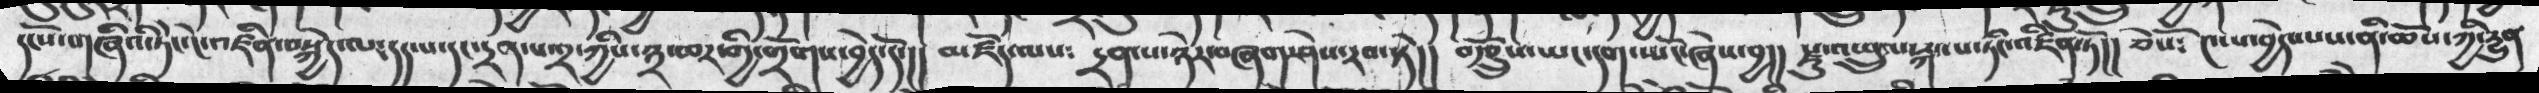དངོས་གཞིའི་ཏིང་ངེ་འཛིན་བསྐྱེད་ལ་དད་པ་དང་དྲན་པ་༢་ཀྱིས་༣་ཆར་གྱི་གྲོགས་བྱེད་དོ་།།  མཛོད་ལས༴  དྲན་པ་ཉེར་བཞག་ཤེས་རབ་སྟེ།།  བརྩྲོུས་ཡང་དག་སྤོང་ཞེས་བྱ།།   རྫུ་འཕྲུལ་རྐང་པ་ཏིང་འཛིན་ཏོ།། ཅེསོ༴  ༤་པ་བྱེད་པས་ནི་ཆོས་ཀྱི་དྱུན
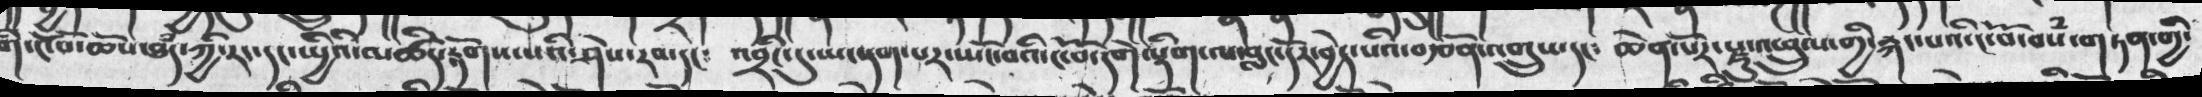གི་ངོ་བོ་ཆོས་ཐཾད་ཀྱི་རང་དང་སྤྱིའི་མཚིད་རྟོགས་པའི་ཤེས་རབ་དང༴   འབྲིང་དུ་ཡང་དག་པར་སྤོང་བའི་ངོ་བོ་དགེ་སྡིག་ལ་བླང་དོར་བྱེད་པའི་བརྩོན་འགྲུས་དང༴  ཆེན་པོར་རྫུ་འཕྲུལ་གྱི་རྐང་པའི་ངོ་བོ་བསཾ་གཏན་གྱི་
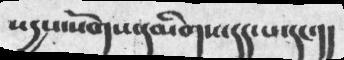སདྱས་སོགས་དམིགས་དད་པ་དང་།།
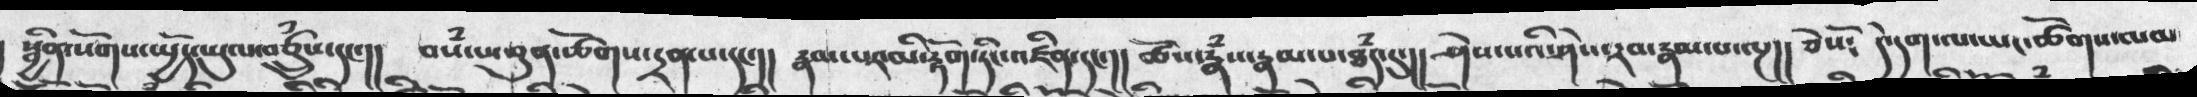སྦྱིན་སོགས་སྤྱོད་ཡུལ་བཙྲུཾས་དང་།།  བསཾ་པ་ཕུན་ཚོགས་དྲན་པ་དང་།།  རྣམ་པར་མི་རྟོག་ཏིང་འཛིན་དང་།།  ཆོས་རྣཾས་རྣམ་པ་ཐཾད་དུ་།།  ཤེས་པའི་ཤེས་རབ་རྣམ་པ་ལྔ།།  ཅེསོ༴  དེ་དག་ལ་ཡང་ཚོགས་ལམ
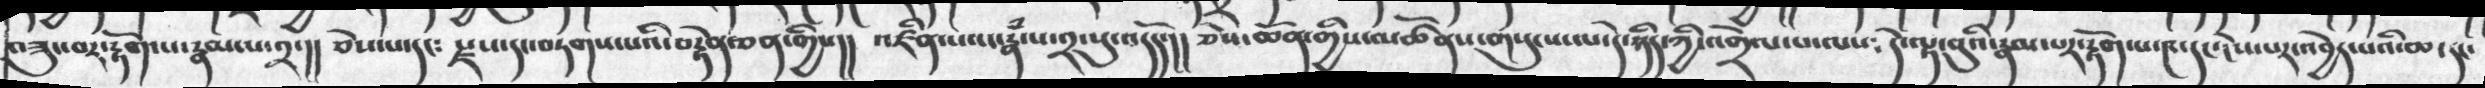བཟུང་བར་རྟོག་པ་རྣམ་པ་༢།།  ཅེས་པ་དང༴  རྫས་དང་བཏགས་པའི་བརྟེན་ཅན་གྱིས།།   འཛིན་པའང་རྣཾ་པ་༢་སུ་འདོད་།།   ཅེས་ཆོན་གྱིས་མཚོནས་གསུངས་པ་དེ་ཉིད་ཀྱི་འགྲེལ་པ་ལས༴  དེ་ལྟ་བུའི་རྣམ་པར་རྟོག་པ་༤་དང་ངེས་པར་དབྱེད་པའི་ཆ་དང་
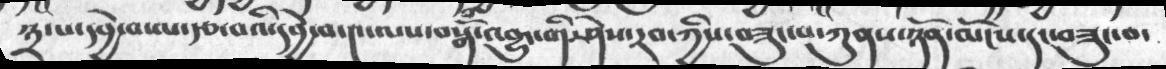༣་པ་དབྱེ་བ་ལ་རྩ་བའི་དབྱེ་བ་༤་ལས་བསྒོཾ་འབྱུང་གི་ཤེས་རབ་ཀྱིས་བཟུང་པ་ཀུནས་ཉོན་མོངས་དང་བཟུང་བ་
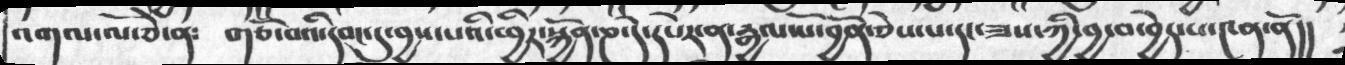འགལ་ལོ་ཅེ་ན༴  གཙོ་བའི་དབང་དུ་བྱས་པའི་ཕྱིར་སྐྱོན་ཎ་དེ་དཔེར་ན་རྒྱལ་པོ་བྱོན་ཅེས་པ་དང་ཟས་ཀྱི་བྱ་བ་བྱེད་པ་༤ན་ནོ།།
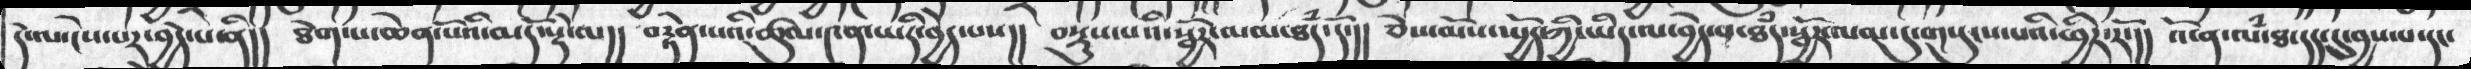དེ་ལ་ངེས་པར་བྱེད་པ་ནི།།  ཐེག་པ་ཆེན་པོའི་མདོ་སྡེ་ལ།། བརྟེན་པའི་ཚུལ་༤ན་ཡིད་བྱེད་པས།། བསྡུས་པའི་སྦྱོར་ལམ་ཐཾད་དོ་།། ཅེས་མོས་སྤྱོད་ཀྱི་ཡིད་ལ་བྱེད་པ་ཐཾད་སྦྱོར་ལམ་དུ་གསུངས་པའི་ཕྱིར་རོ་།། འོ་ན་ལཾ་ཐ་དད་དུ་བྱས་པ་དང་
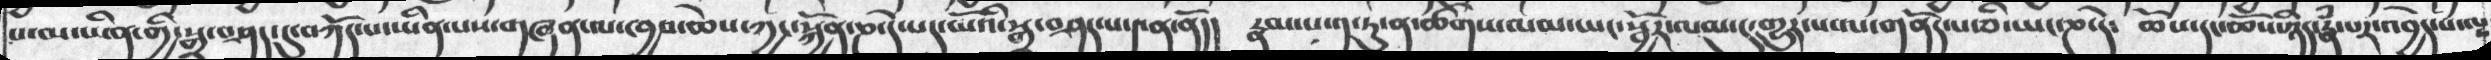པ་མ་ཡིན་གྱི་སྒྲ་བཤད་དུ་བཀོད་པ་ཡིན་པས་གཞན་ལ་ཁྱབ་ཆེས་ཀྱང་སྐྱོན་ཎ་དེ་པད་མོའི་སྒྲ་བཤད་པ་༤ན་ནོ།།  རྣམ་པ་༡་ཏུ་ན་ཚོགས་ལམ་ཡང་སྦྱོར་ལམ་དུ་གྱུར་པ་ལ་གནོད་པ་ཅི་ཡང་ཎ་དེ༴   ཆོས་དང་ཆོས་ཉིད་རྣཾ་པར་འབྱེད་པ་ལས
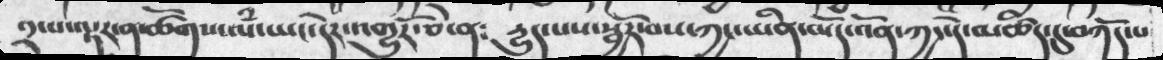༢་པ་ལྟར་ན་ཚོགས་ལཾ་ཡང་དེར་འགྱུརོ་ཅེ་ན༴  དྱུད་པས་སྦྱོར་བས་ཀྱང་ཡིན་མོད་འོན་ཀྱང་དེ་མཚིད་དུ་བཀོད་པ
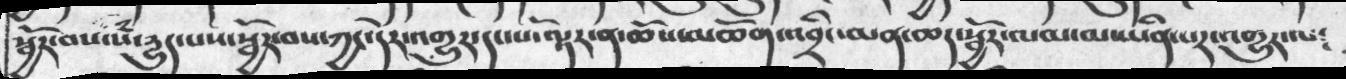སྦྱོར་བས་ལཾ་དྱུད་པས་སྦྱོར་བས་ཀྱང་དེར་འགྱུར་དང་པོ་ལྟར་ན་ཆོས་མཆོག་འབྲིང་མན་ཆད་སྦྱོར་ལམ་མ་ཡིན་པར་འགྱུར་ལ༴
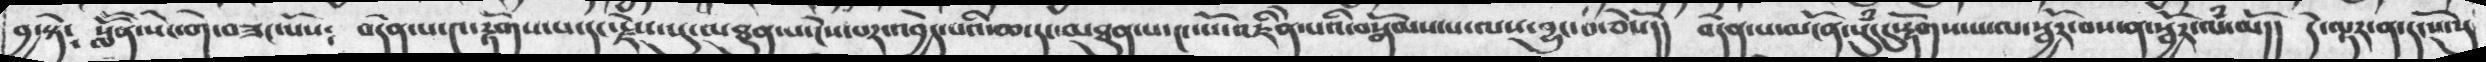བྱ་སྟེ༴  སློོན་སེང་གེ་བཟང་པོས༴  བདེན་པ་༤་རྟོགས་པ་དང་རྗེས་སུ་མཐུན་པ་ངེས་པར་འབྱེད་པའི་ཆ་དང་མཐུན་པ་༤་པོ་འཇིེན་པའི་བསྒོམས་པ་ལས་བྱུང་བ་ཅེསོ།།  བདེན་པ་མངོན་སུཾ་དུ་རྟོགས་པ་ལ་སྦྱོར་བས་ན་སྦྱོར་ལཾ་མོ།།  དེ་ལྟར་ན་དངོས་སུ
